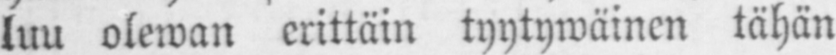luu olewan erittäin tyytywäinen tähän
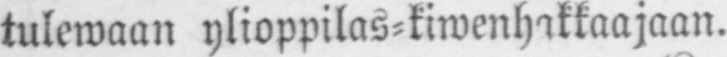tulewaan ylioppilas-kiwenhakkaajaan.
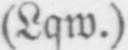(Lqw.)
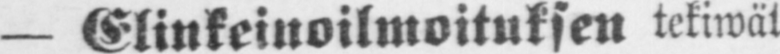— Elinkeinoilmoituksen tekiwät
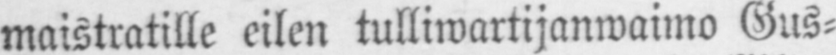maistratille eilen tulliwartijanwaimo Gus-
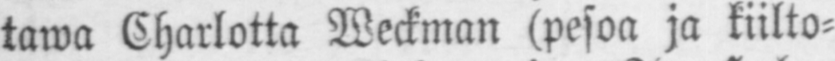tawa Charlotta Weckman (pesoa ja kiilto-
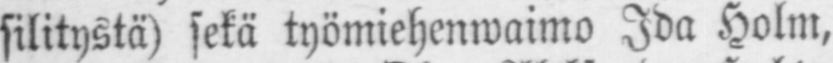silitystä) sekä työmiehenwaimo Ida Holm,
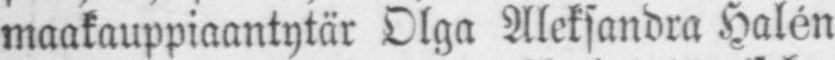maakauppiaantytär Olga Aleksandra Halén
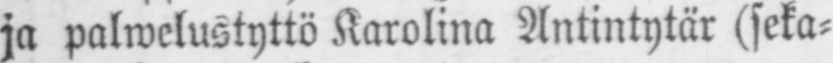ja palwelustyttö Karolina Antintytär (seka-
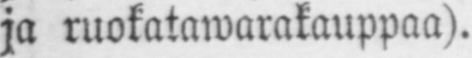ja ruokatawarakauppaa).
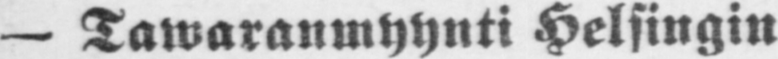— Tawaranmyynti Helsingin
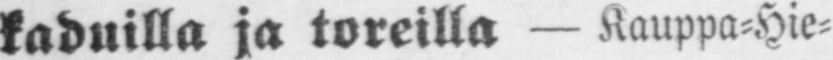kaduilla ja toreilla — Kauppa-Hie-
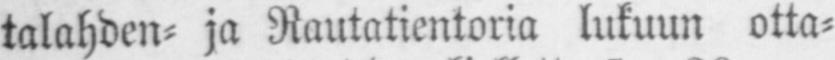talahden- ja Rautatientoria lukuun otta-
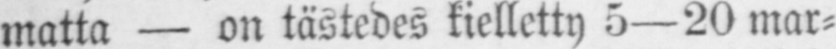matta — on tästedes kielletty 5 —20 mar-
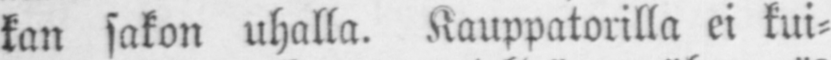kan sakon uhalla. Kauppatorilla ei kui-
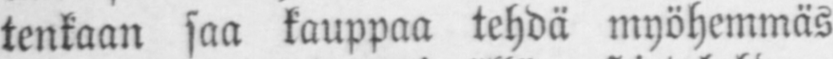tenkaan saa kauppaa tehdä myöhemmäs
